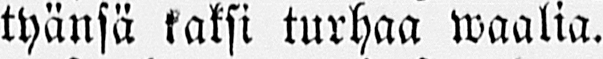tyänsä kaksi turhaa waalia.
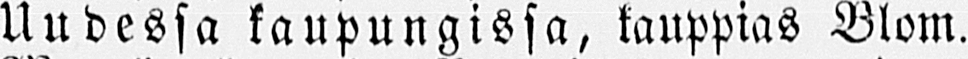Uudessa kaupungissa, kauppias Blom.
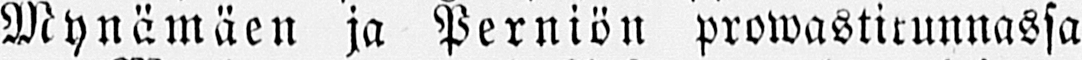Mynämäen ja Perniön prowastirunnassa
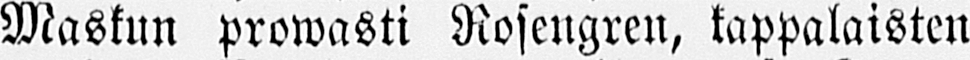Maskun prowasti Rosengren, kappalaisten
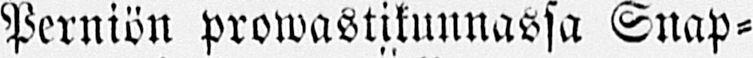Perniön prowastikunnassa Snap-
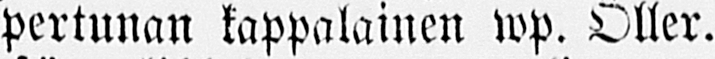pertunan kappalainen wp. Öller.
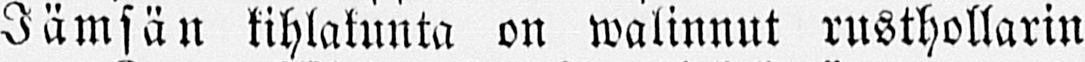Jämsän kihlakunta on walinnut rusthollarin
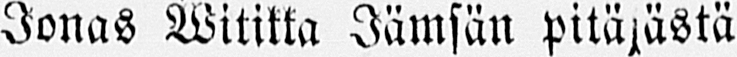Jonas Witikka Jämsän pitäjästä
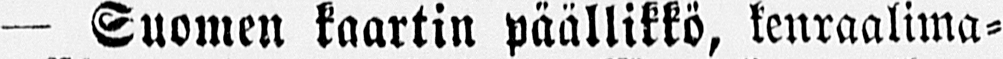— Suomen kaartin päällikkö, kenraalima-
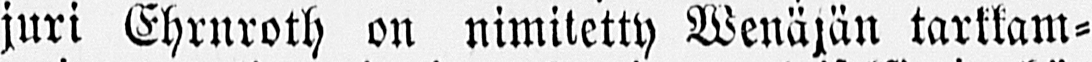juri Ehrnroth on nimitetty wenäjän tarkkam-
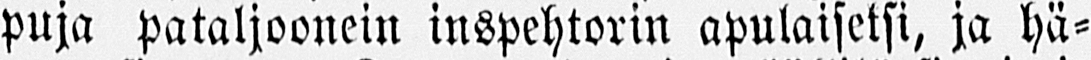puja pataljoonein inspehtorin apulaiseksi, ja hä-
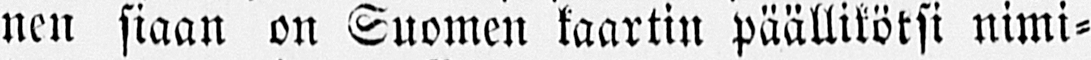nen siaan on Suomen kaartin päälliköksi nimi-
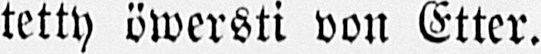tetty öwersti von Etter.
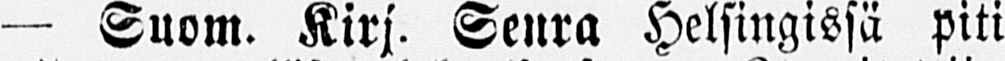— Suom. Kirj. Seura Helsingissä piti
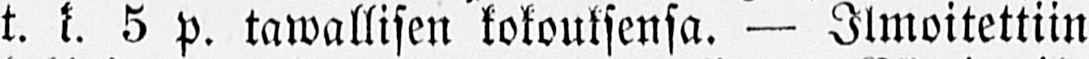t. k. 5 p. tawallisen kokouksensa. — Ilmoitettiin
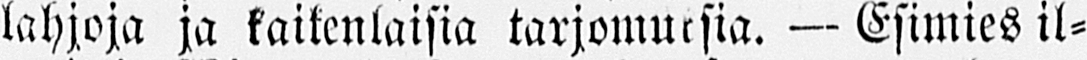lahjoja ja kaikenlaisia tarjomuksia. - Esimies il-
